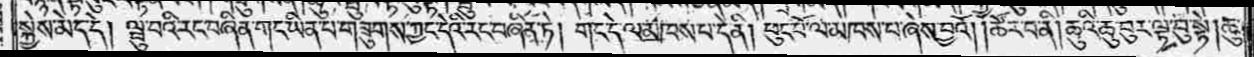སྐྱེས་མེད་དེ། ལྦུ་བའི་རང་བཞིན་གང་ཡིན་པ་གཟུགས་ཀྱང་དེའི་རང་བཞིན་ཏེ། གང་དེ་ལ་མཁས་པ་དེ་ནི། ཕུང་པོ་ལ་མཁས་པ་ཞེས་བྱའོ། །ཚོར་བ་ནི། ཆུའི་ཆུ་བུར་ལྟ་བུ་སྟེ། ཆུ་
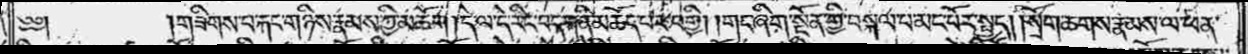༄༅༎གཟིགས་པ་རྐང་གཉིས་རྣམས་ཀྱི་མཆོག །དེ་ལ་དེ་རིང་བདག་ནི་མཆོད་པར་བགྱི། །གང་ཞིག་སྔོན་གྱི་བསྐལ་པ་མང་པོར་སྤྱད། །སྲོག་ཆགས་རྣམས་ལ་ཕན་
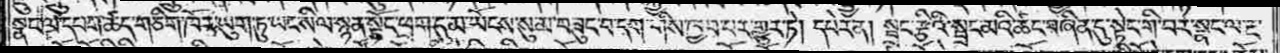སྣང་ལ་དཔག་ཚད་གཅིག་ཁོར་ཡུག་ཏུ་ཡང་སིལ་སྙན་སྟོང་ཕྲག་དུ་མ་ཡོངས་སུ་མ་བཟུང་བ་དག་གིས་ཁྱབ་པར་གྱུར་ཏེ། དཔེར་ན། སྦྲང་རྩིའི་སྦྲང་མའི་ཚང་བཞིན་དུ་སྟེང་གི་བར་སྣང་ལ་རྔ་
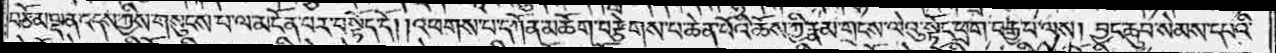བཅོམ་ལྡན་འདས་ཀྱིས་གསུངས་པ་ལ་མངོན་པར་བསྟོད་དོ། །འཕགས་པ་དཀོན་མཆོག་བརྩེགས་པ་ཆེན་པོའི་ཆོས་ཀྱི་རྣམ་གྲངས་ལེའུ་སྟོང་ཕྲག་བརྒྱ་པ་ལས། བྱང་ཆུབ་སེམས་དཔའི་
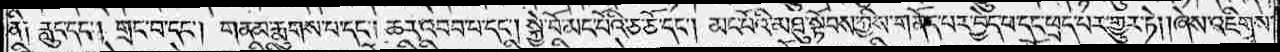ནི༑ རླུང་དང༌། གྲང་བ་དང༌། གནམ་རྨུགས་པ་དང༌། ཆར་འབབ་པ་དང༌། སྐྱེ་བོ་མང་པོའི་ཅ་ཅོ་དང༌། མང་པོའི་མཐུ་སྟོབས་ཀྱིས་གནོད་པར་བྱེད་པ་དང་ཕྲད་པར་གྱུར་ཏེ། །ཞེས་འཇིགས་
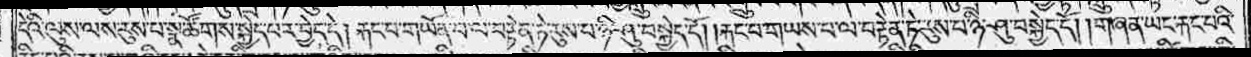དེའི་ལུས་ལས་རུས་པ་སྣ་ཚོགས་སྐྱེད་པར་བྱེད་དེ། རྐང་པ་གཡོན་པ་ལ་བརྟེན་ཏེ་རུས་པ་ཉི་ཤུ་བསྐྱེད་དོ། །རྐང་པ་གཡས་པ་ལ་བརྟེན་ཏེ་རུས་པ་ཉི་ཤུ་བསྐྱེད་དོ། །གཞན་ཡང་རྐང་པའི་
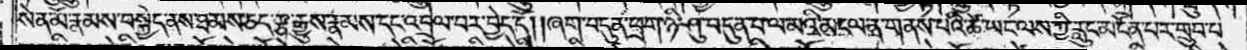སེན་མོ་རྣམས་བསྐྱེད་ནས་ཐམས་ཅད་རྩ་རྒྱུས་རྣམས་དང་འབྲེལ་པར་བྱེད་དོ། །ཞག་བདུན་ཕྲག་ཉི་ཤུ་བདུན་པ་ལ་མའི་མངལ་ན་གནས་པའི་ཚེ་ཡང་ལས་ཀྱི་རླུང་མངོན་པར་གྲུབ་པ་
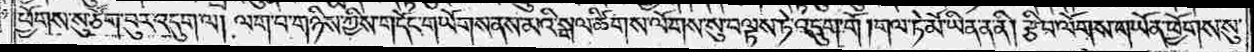ཕྱོགས་སུ་ཙོག་པུར་འདུག་ལ། ལག་པ་གཉིས་ཀྱིས་གདོང་གཡོགས་ནས་མའི་སྒལ་ཚིགས་ལོགས་སུ་བལྟས་ཏེ་འདུག་གོ །གལ་ཏེ་མོ་ཡིན་ན་ནི། རྩིབ་ལོགས་གཡོན་ཕྱོགས་སུ་
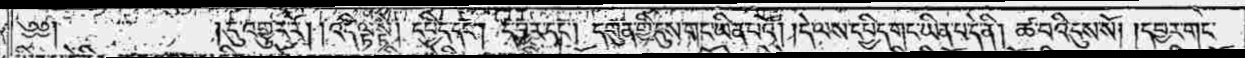༄༅༎དུ་འགྱུར་རོ། །འདི་ལྟ་སྟེ། དཔྱིད་དང༌། དབྱར་དང༌། དགུན་གྱི་དུས་གང་ཡིན་པའོ། །དེ་ལས་དཔྱིད་གང་ཡིན་པ་དེ་ནི། ཚ་བའི་དུས་སོ། །དབྱར་གང་
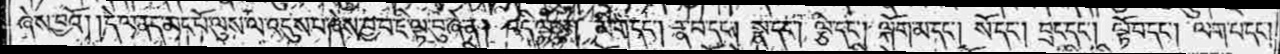ཞེས་བྱའོ། །དེ་ལ་ནད་མང་པོ་ལུས་ལ་འདུས་པ་ཞེས་བྱ་བ་ཇི་ལྟ་བུ་ཞེ་ན། འདི་ལྟ་སྟེ། མིག་དང༌། རྣ་བ་དང༌། སྣ་དང༌། ལྕེ་དང༌། ལྐོག་མ་དང༌། སོ་དང༌། བྲང་དང༌། ལྟོ་བ་དང༌། ལག་པ་དང༌།
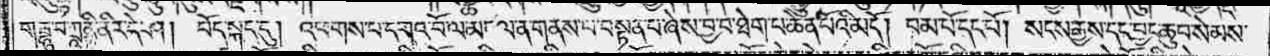གརྦྷཱ་བ་ཀྲཱནྟི་ནིར་དེ་ཤ། བོད་སྐད་དུ། འཕགས་པ་དགའ་བོ་ལ་མངལ་ན་གནས་པ་བསྟན་པ་ཞེས་བྱ་བ་ཐེག་པ་ཆེན་པོའི་མདོ། བམ་པོ་དང་པོ། སངས་རྒྱས་དང་བྱང་ཆུབ་སེམས་
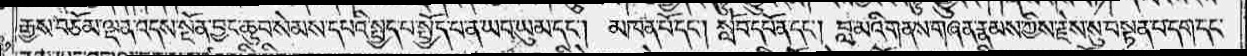རྒྱས་བཅོམ་ལྡན་འདས་སྔོན་བྱང་ཆུབ་སེམས་དཔའི་སྤྱད་པ་སྤྱོད་པ་ན་ཡབ་ཡུམ་དང༌། མཁན་པོ་དང༌། སློབ་དཔོན་དང༌། བླ་མའི་གནས་གཞན་རྣམས་ཀྱིས་རྗེས་སུ་བསྟན་པ་དག་དང་
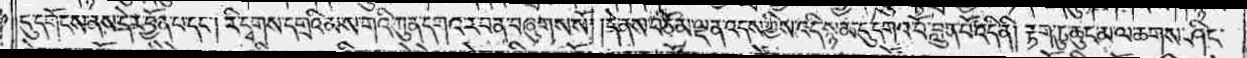དུ་དགོངས་ནས་དེར་བྱོན་པ་དང༌། རི་དྭགས་དགྲའི་མ་ས་གའི་ཀུན་དགའ་ར་བ་ན་བཞུགས་སོ། །དེ་ནས་བཅོམ་ལྡན་འདས་ཀྱིས་འདི་སྙམ་དུ་དགའ་བོ་བླུན་པོ་འདི་ནི། རྟག་ཏུ་ཆུང་མ་ལ་ཆགས་ཤིང་
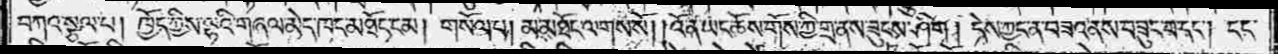བཀའ་སྩལ་པ། ཁྱོད་ཀྱིས་ལྷའི་གཞལ་མེད་ཁང་མཐོང་ངམ། གསོལ་པ། མ་མཐོང་ལགས་སོ། །འོ་ན་ཡང་ཆོས་གོས་ཀྱི་གྲ་ནས་ཟུངས་ཤིག། དེས་ཀྱང་ན་བཟའ་ནས་བཟུང་བ་དང༌། ངང་
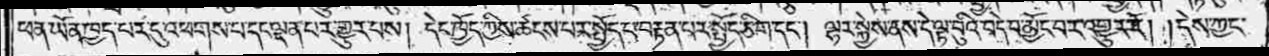ཕན་ཡོན་ཁྱད་པར་དུ་འཕགས་པ་དང་ལྡན་པར་གྱུར་པས། དེང་ཁྱོད་ཀྱིས་ཚངས་པར་སྤྱོད་པ་བརྟན་པར་སྤྱོད་ཅིག་དང༌། ལྷར་སྐྱེས་ནས་དེ་ལྟ་བུའི་བདེ་བ་མྱོང་བར་འགྱུར་རོ། །དེས་ཀྱང་
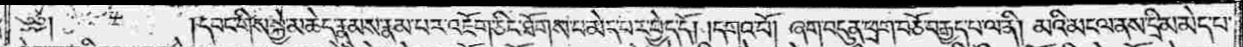༄༅༎དབང་གིས་སྐྱེ་མཆེད་རྣམས་རྣམ་པར་འཇོག་ཅིང་ཐོགས་པ་མེད་པར་བྱེད་དོ། །དགའ་བོ། ཞག་བདུན་ཕྲག་བཅོ་བརྒྱད་པ་ལ་ནི། མའི་མངལ་ནས་དྲི་མ་མེད་པ་
